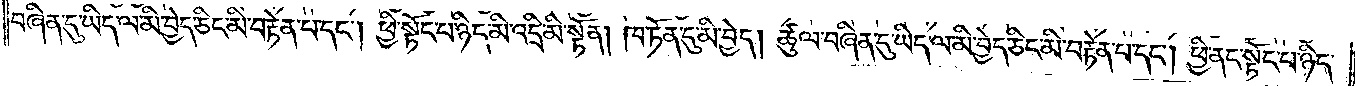བཞིན་དུ་ཡིད་ལ་མི་བྱེད་ཅིང་མི་བརྟེན་པ་དང༌། ཕྱི་སྟོང་པ་ཉིད་མི་འདྲི་མི་སྟོན། ཁ་ཏོན་དུ་མི་བྱེད། ཚུལ་བཞིན་དུ་ཡིད་ལ་མི་བྱེད་ཅིང་མི་བརྟེན་པ་དང༌། ཕྱི་ནང་སྟོང་པ་ཉིད་
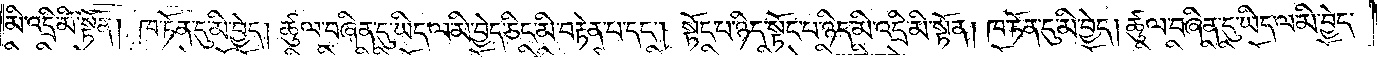མི་འདྲི་མི་སྟོན། ཁ་ཏོན་དུ་མི་བྱེད། ཚུལ་བཞིན་དུ་ཡིད་ལ་མི་བྱེད་ཅིང་མི་བརྟེན་པ་དང༌། སྟོང་པ་ཉིད་སྟོང་པ་ཉིད་མི་འདྲི་མི་སྟོན། ཁ་ཏོན་དུ་མི་བྱེད། ཚུལ་བཞིན་དུ་ཡིད་ལ་མི་བྱེད་
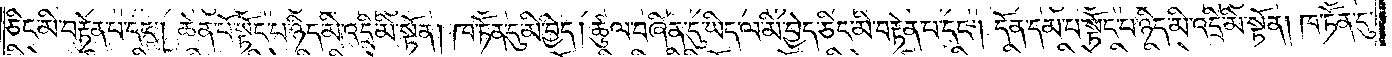ཅིང་མི་བརྟེན་པ་དང༌། ཆེན་པོ་སྟོང་པ་ཉིད་མི་འདྲི་མི་སྟོན། ཁ་ཏོན་དུ་མི་བྱེད། ཚུལ་བཞིན་དུ་ཡིད་ལ་མི་བྱེད་ཅིང་མི་བརྟེན་པ་དང༌། དོན་དམ་པ་སྟོང་པ་ཉིད་མི་འདྲི་མི་སྟོན། ཁ་ཏོན་དུ་
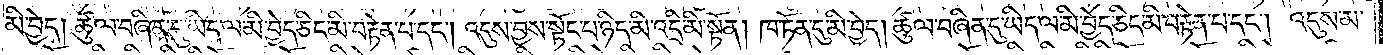མི་བྱེད། ཚུལ་བཞིན་དུ་ཡིད་ལ་མི་བྱེད་ཅིང་མི་བརྟེན་པ་དང༌། འདུས་བྱས་སྟོང་པ་ཉིད་མི་འདྲི་མི་སྟོན། ཁ་ཏོན་དུ་མི་བྱེད། ཚུལ་བཞིན་དུ་ཡིད་ལ་མི་བྱེད་ཅིང་མི་བརྟེན་པ་དང༌། འདུས་མ་
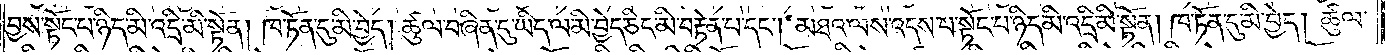བྱས་སྟོང་པ་ཉིད་མི་འདྲི་མི་སྟོན། ཁ་ཏོན་དུ་མི་བྱེད། ཚུལ་བཞིན་དུ་ཡིད་ལ་མི་བྱེད་ཅིང་མི་བརྟེན་པ་དང༌། མཐའ་ལས་འདས་པ་སྟོང་པ་ཉིད་མི་འདྲི་མི་སྟོན། ཁ་ཏོན་དུ་མི་བྱེད། ཚུལ་
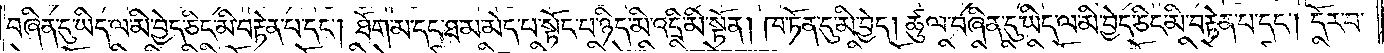བཞིན་དུ་ཡིད་ལ་མི་བྱེད་ཅིང་མི་བརྟེན་པ་དང༌། ཐོག་མ་དང་ཐ་མ་མེད་པ་སྟོང་པ་ཉིད་མི་འདྲི་མི་སྟོན། ཁ་ཏོན་དུ་མི་བྱེད། ཚུལ་བཞིན་དུ་ཡིད་ལ་མི་བྱེད་ཅིང་མི་བརྟེན་པ་དང༌། དོར་བ་
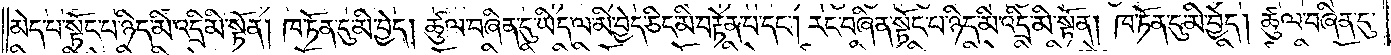མེད་པ་སྟོང་པ་ཉིད་མི་འདྲི་མི་སྟོན། ཁ་ཏོན་དུ་མི་བྱེད། ཚུལ་བཞིན་དུ་ཡིད་ལ་མི་བྱེད་ཅིང་མི་བརྟེན་པ་དང༌། རང་བཞིན་སྟོང་པ་ཉིད་མི་འདྲི་མི་སྟོན། ཁ་ཏོན་དུ་མི་བྱེད། ཚུལ་བཞིན་དུ་
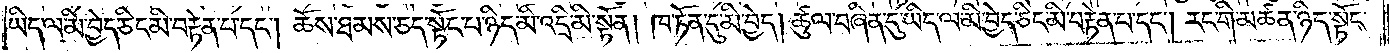ཡིད་ལ་མི་བྱེད་ཅིང་མི་བརྟེན་པ་དང༌། ཆོས་ཐམས་ཅད་སྟོང་པ་ཉིད་མི་འདྲི་མི་སྟོན། ཁ་ཏོན་དུ་མི་བྱེད། ཚུལ་བཞིན་དུ་ཡིད་ལ་མི་བྱེད་ཅིང་མི་བརྟེན་པ་དང༌། རང་གི་མཚན་ཉིད་སྟོང་
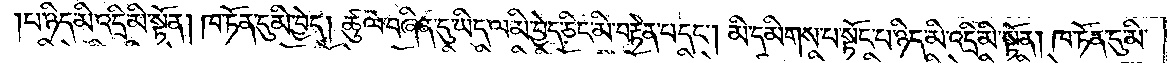པ་ཉིད་མི་འདྲི་མི་སྟོན། ཁ་ཏོན་དུ་མི་བྱེད། ཚུལ་བཞིན་དུ་ཡིད་ལ་མི་བྱེད་ཅིང་མི་བརྟེན་པ་དང༌། མི་དམིགས་པ་སྟོང་པ་ཉིད་མི་འདྲི་མི་སྟོན། ཁ་ཏོན་དུ་མི་
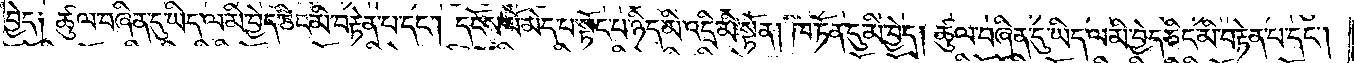བྱེད༑ ཚུལ་བཞིན་དུ་ཡིད་ལ་མི་བྱེད་ཅིང་མི་བརྟེན་པ་དང༌། དངོས་པོ་མེད་པ་སྟོང་པ་ཉིད་མི་འདྲི་མི་སྟོན། ཁ་ཏོན་དུ་མི་བྱེད། ཚུལ་བཞིན་དུ་ཡིད་ལ་མི་བྱེད་ཅིང་མི་བརྟེན་པ་དང༌།
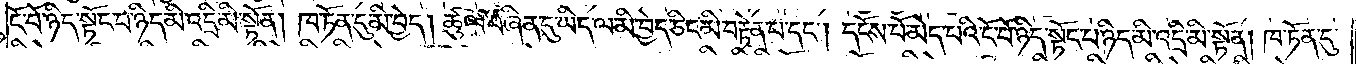ངོ་བོ་ཉིད་སྟོང་པ་ཉིད་མི་འདྲི་མི་སྟོན། ཁ་ཏོན་དུ་མི་བྱེད། ཚུལ་བཞིན་དུ་ཡིད་ལ་མི་བྱེད་ཅིང་མི་བརྟེན་པ་དང༌། དངོས་པོ་མེད་པའི་ངོ་བོ་ཉིད་སྟོང་པ་ཉིད་མི་འདྲི་མི་སྟོན། ཁ་ཏོན་དུ་
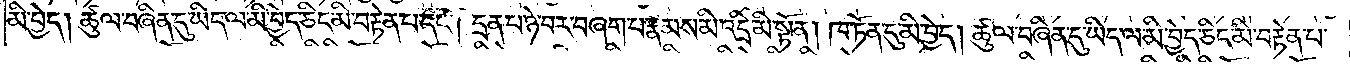མི་བྱེད། ཚུལ་བཞིན་དུ་ཡིད་ལ་མི་བྱེད་ཅིང་མི་བརྟེན་པ་དང༌། དྲན་པ་ཉེ་བར་བཞག་པ་རྣམས་མི་འདྲི་མི་སྟོན། ཁ་ཏོན་དུ་མི་བྱེད། ཚུལ་བཞིན་དུ་ཡིད་ལ་མི་བྱེད་ཅིང་མི་བརྟེན་པ་
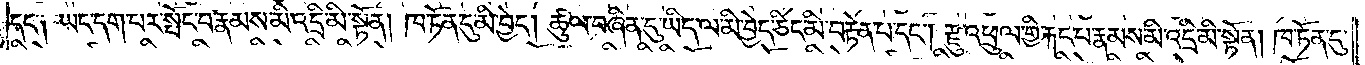དང༌༑ ཡང་དག་པར་སྤོང་བ་རྣམས་མི་འདྲི་མི་སྟོན། ཁ་ཏོན་དུ་མི་བྱེད། ཚུལ་བཞིན་དུ་ཡིད་ལ་མི་བྱེད་ཅིང་མི་བརྟེན་པ་དང༌། རྫུ་འཕྲུལ་གྱི་རྐང་པ་རྣམས་མི་འདྲི་མི་སྟོན། ཁ་ཏོན་དུ་
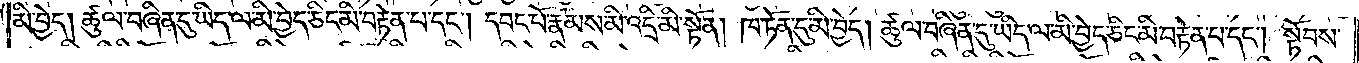མི་བྱེད། ཚུལ་བཞིན་དུ་ཡིད་ལ་མི་བྱེད་ཅིང་མི་བརྟེན་པ་དང༌། དབང་པོ་རྣམས་མི་འདྲི་མི་སྟོན། ཁ་ཏོན་དུ་མི་བྱེད། ཚུལ་བཞིན་དུ་ཡིད་ལ་མི་བྱེད་ཅིང་མི་བརྟེན་པ་དང༌། སྟོབས་
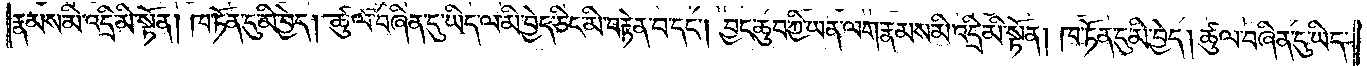རྣམས་མི་འདྲི་མི་སྟོན། ཁ་ཏོན་དུ་མི་བྱེད། ཚུལ་བཞིན་དུ་ཡིད་ལ་མི་བྱེད་ཅིང་མི་བརྟེན་པ་དང༌། བྱང་ཆུབ་ཀྱི་ཡན་ལག་རྣམས་མི་འདྲི་མི་སྟོན། ཁ་ཏོན་དུ་མི་བྱེད། ཚུལ་བཞིན་དུ་ཡིད་
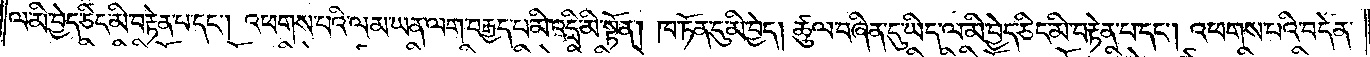ལ་མི་བྱེད་ཅིང་མི་བརྟེན་པ་དང༌། འཕགས་པའི་ལམ་ཡན་ལག་བརྒྱད་པ་མི་འདྲི་མི་སྟོན། ཁ་ཏོན་དུ་མི་བྱེད། ཚུལ་བཞིན་དུ་ཡིད་ལ་མི་བྱེད་ཅིང་མི་བརྟེན་པ་དང༌། འཕགས་པའི་བདེན་
